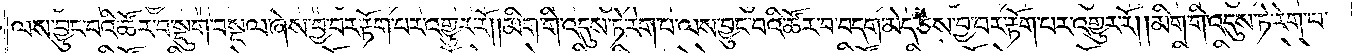ལས་བྱུང་བའི་ཚོར་བ་སྡུག་བསྔལ་ཞེས་བྱ་བར་རྟོག་པར་འགྱུར་རོ། །མིག་གི་འདུས་ཏེ་རེག་པ་ལས་བྱུང་བའི་ཚོར་བ་བདག་མེད་ཅེས་བྱ་བར་རྟོག་པར་འགྱུར་རོ། །མིག་གི་འདུས་ཏེ་རེག་པ་
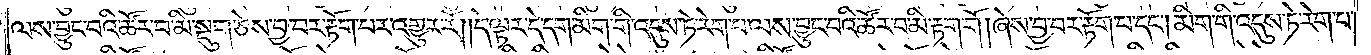ལས་བྱུང་བའི་ཚོར་བ་མི་སྡུག་ཅེས་བྱ་བར་རྟོག་པར་འགྱུར་རོ། །དེ་ལྟར་དེ་དག་མིག་གི་འདུས་ཏེ་རེག་པ་ལས་བྱུང་བའི་ཚོར་བ་མི་རྟག་གོ། ཞེས་བྱ་བར་རྟོག་པ་དང༌། མིག་གི་འདུས་ཏེ་རེག་པ་
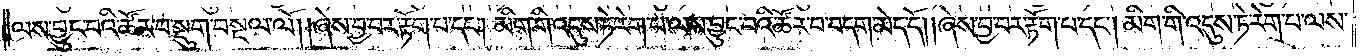ལས་བྱུང་བའི་ཚོར་བ་སྡུག་བསྔལ་ལོ། །ཞེས་བྱ་བར་རྟོག་པ་དང༌། མིག་གི་འདུས་ཏེ་རེག་པ་ལས་བྱུང་བའི་ཚོར་བ་བདག་མེད་དོ། །ཞེས་བྱ་བར་རྟོག་པ་དང༌། མིག་གི་འདུས་ཏེ་རེག་པ་ལས་
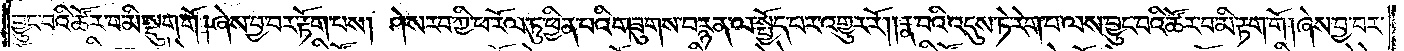བྱུང་བའི་ཚོར་བ་མི་སྡུག་གོ། ཞེས་བྱ་བར་རྟོག་པས། ཤེས་རབ་ཀྱི་ཕ་རོལ་ཏུ་ཕྱིན་པའི་གཟུགས་བརྙན་ལ་སྤྱོད་པར་འགྱུར་རོ། །རྣ་བའི་འདུས་ཏེ་རེག་པ་ལས་བྱུང་བའི་ཚོར་བ་མི་རྟག་གོ། ཞེས་བྱ་བར་
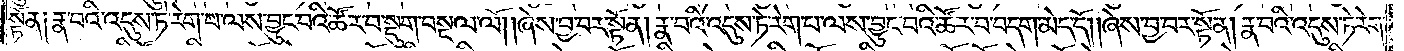སྟོན༑ རྣ་བའི་འདུས་ཏེ་རེག་པ་ལས་བྱུང་བའི་ཚོར་བ་སྡུག་བསྔལ་ལོ། །ཞེས་བྱ་བར་སྟོན། རྣ་བའི་འདུས་ཏེ་རེག་པ་ལས་བྱུང་བའི་ཚོར་བ་བདག་མེད་དོ། །ཞེས་བྱ་བར་སྟོན། རྣ་བའི་འདུས་ཏེ་རེག་
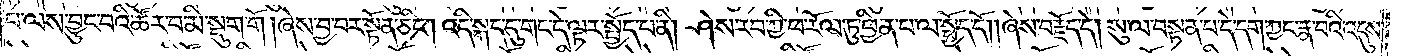པ་ལས་བྱུང་བའི་ཚོར་བ་མི་སྡུག་གོ། ཞེས་བྱ་བར་སྟོན་ཅིང༌། འདི་སྐད་དུ་གང་དེ་ལྟར་སྤྱོད་པ་ནི། ཤེས་རབ་ཀྱི་ཕ་རོལ་ཏུ་ཕྱིན་པ་ལ་སྤྱོད་དོ། །ཞེས་བརྗོད་དེ། སུ་ལ་བསྟན་པ་དེ་དག་ཀྱང་རྣ་བའི་འདུས་
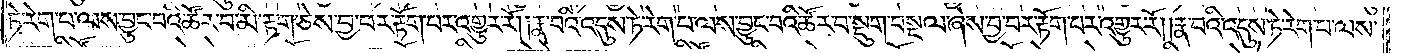ཏེ་རེག་པ་ལས་བྱུང་བའི་ཚོར་བ་མི་རྟག་ཅེས་བྱ་བར་རྟོག་པར་འགྱུར་རོ། །རྣ་བའི་འདུས་ཏེ་རེག་པ་ལས་བྱུང་བའི་ཚོར་བ་སྡུག་བསྔལ་ཞེས་བྱ་བར་རྟོག་པར་འགྱུར་རོ། །རྣ་བའི་འདུས་ཏེ་རེག་པ་ལས་
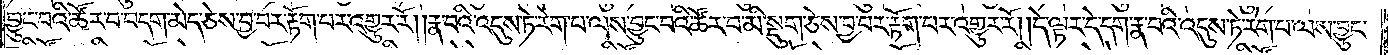བྱུང་བའི་ཚོར་བ་བདག་མེད་ཅེས་བྱ་བར་རྟོག་པར་འགྱུར་རོ། །རྣ་བའི་འདུས་ཏེ་རེག་པ་ལས་བྱུང་བའི་ཚོར་བ་མི་སྡུག་ཅེས་བྱ་བར་རྟོག་པར་འགྱུར་རོ། །དེ་ལྟར་དེ་དག་རྣ་བའི་འདུས་ཏེ་རེག་པ་ལས་བྱུང་
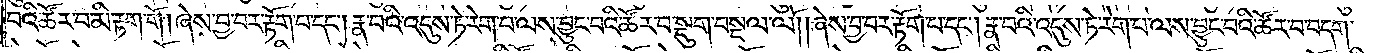བའི་ཚོར་བ་མི་རྟག་གོ། ཞེས་བྱ་བར་རྟོག་པ་དང༌། རྣ་བའི་འདུས་ཏེ་རེག་པ་ལས་བྱུང་བའི་ཚོར་བ་སྡུག་བསྔལ་ལོ། །ཞེས་བྱ་བར་རྟོག་པ་དང༌། རྣ་བའི་འདུས་ཏེ་རེག་པ་ལས་བྱུང་བའི་ཚོར་བ་བདག་
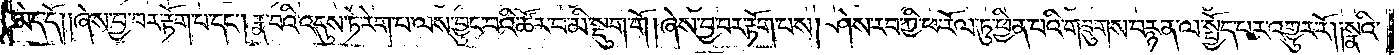མེད་དོ། །ཞེས་བྱ་བར་རྟོག་པ་དང༌། རྣ་བའི་འདུས་ཏེ་རེག་པ་ལས་བྱུང་བའི་ཚོར་བ་མི་སྡུག་གོ། ཞེས་བྱ་བར་རྟོག་པས། ཤེས་རབ་ཀྱི་ཕ་རོལ་ཏུ་ཕྱིན་པའི་གཟུགས་བརྙན་ལ་སྤྱོད་པར་འགྱུར་རོ། །སྣའི་
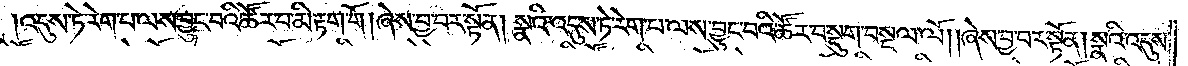འདུས་ཏེ་རེག་པ་ལས་བྱུང་བའི་ཚོར་བ་མི་རྟག་གོ། ཞེས་བྱ་བར་སྟོན། སྣའི་འདུས་ཏེ་རེག་པ་ལས་བྱུང་བའི་ཚོར་བ་སྡུག་བསྔལ་ལོ། །ཞེས་བྱ་བར་སྟོན། སྣའི་འདུས་
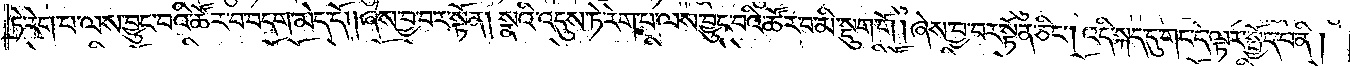ཏེ་རེག་པ་ལས་བྱུང་བའི་ཚོར་བ་བདག་མེད་དོ། །ཞེས་བྱ་བར་སྟོན། སྣའི་འདུས་ཏེ་རེག་པ་ལས་བྱུང་བའི་ཚོར་བ་མི་སྡུག་གོ། ཞེས་བྱ་བར་སྟོན་ཅིང༌། འདི་སྐད་དུ་གང་དེ་ལྟར་སྤྱོད་པ་ནི།
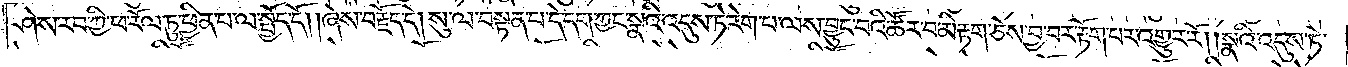ཤེས་རབ་ཀྱི་ཕ་རོལ་ཏུ་ཕྱིན་པ་ལ་སྤྱོད་དོ། །ཞེས་བརྗོད་དེ། སུ་ལ་བསྟན་པ་དེ་དག་ཀྱང་སྣའི་འདུས་ཏེ་རེག་པ་ལས་བྱུང་བའི་ཚོར་བ་མི་རྟག་ཅེས་བྱ་བར་རྟོག་པར་འགྱུར་རོ། །སྣའི་འདུས་ཏེ་
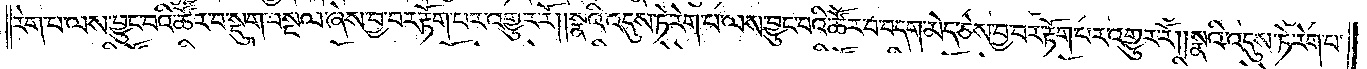རེག་པ་ལས་བྱུང་བའི་ཚོར་བ་སྡུག་བསྔལ་ཞེས་བྱ་བར་རྟོག་པར་འགྱུར་རོ། །སྣའི་འདུས་ཏེ་རེག་པ་ལས་བྱུང་བའི་ཚོར་བ་བདག་མེད་ཅེས་བྱ་བར་རྟོག་པར་འགྱུར་རོ། །སྣའི་འདུས་ཏེ་རེག་པ་
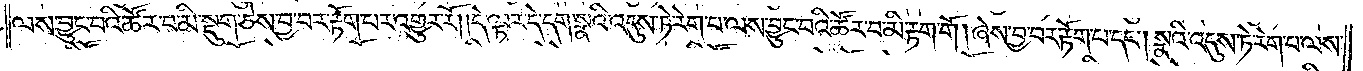ལས་བྱུང་བའི་ཚོར་བ་མི་སྡུག་ཅེས་བྱ་བར་རྟོག་པར་འགྱུར་རོ། །དེ་ལྟར་དེ་དག་སྣའི་འདུས་ཏེ་རེག་པ་ལས་བྱུང་བའི་ཚོར་བ་མི་རྟག་གོ། ཞེས་བྱ་བར་རྟོག་པ་དང༌། སྣའི་འདུས་ཏེ་རེག་པ་ལས་
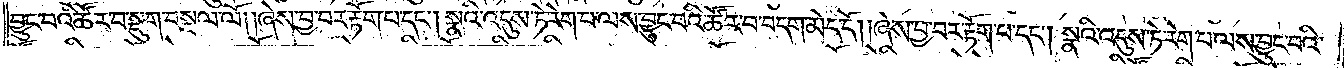བྱུང་བའི་ཚོར་བ་སྡུག་བསྔལ་ལོ། །ཞེས་བྱ་བར་རྟོག་པ་དང༌། སྣའི་འདུས་ཏེ་རེག་པ་ལས་བྱུང་བའི་ཚོར་བ་བདག་མེད་དོ། །ཞེས་བྱ་བར་རྟོག་པ་དང༌། སྣའི་འདུས་ཏེ་རེག་པ་ལས་བྱུང་བའི་
